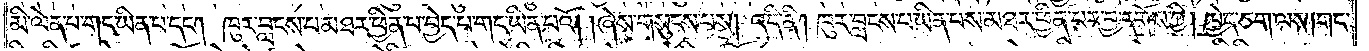མི་ལེན་པ་གང་ཡིན་པ་དང༌། ཁུར་བླངས་པ་མཐར་ཕྱིན་པ་བྱེད་པ་གང་ཡིན་པའོ། །ཞེས་གསུངས་པས། འདི་ནི། ཁུར་བླངས་པ་ཡིན་པས་མཐར་ཕྱིན་པར་བྱ་དགོས་ཀྱི། ཁྱེད་ཅག་ལས། གང་
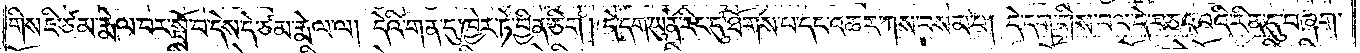གིས་ཇི་ཙམ་རྨེལ་བར་སྤྲོ་བ་དེས་དེ་ཙམ་རྨེལ་ལ། དེའི་གན་དུ་ཁྱེར་ཏེ་བྱིན་ཅིག །དེ་དག་ཡུན་རིང་དུ་ཐོགས་པ་དང་འཆར་ཀས་བསམ་པ། དེ་དག་གིས་བལ་དེ་བཅའ་བའི་རིན་དུ་བཞག་
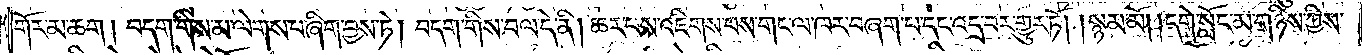གོར་མ་ཆག། བདག་གིས་མ་ལེགས་པ་ཞིག་བྱས་ཏེ། བདག་གིས་བལ་དེ་ནི། ཆར་པས་འཇིགས་པས་གང་ལ་ཁར་བཞག་པ་དང་འདྲ་བར་གྱུར་ཏོ། །སྙམ་མོ། །དགེ་སློང་མ་གཉིས་ཀྱིས་
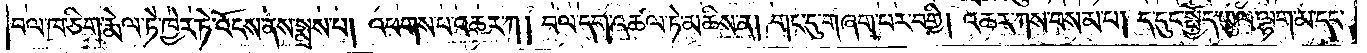བལ་ཁ་ཅིག་རྨེལ་ཏེ་ཁྱེར་ཏེ་འོངས་ནས་སྨྲས་པ། འཕགས་པ་འཆར་ཀ། བལ་དག་འཚལ་ཏེ་མཆིས་ན། གང་དུ་གཞག་པར་བགྱི། འཆར་ཀས་བསམ་པ། ད་དུང་སྤྱོད་ཡུལ་ལྷག་མ་དང་
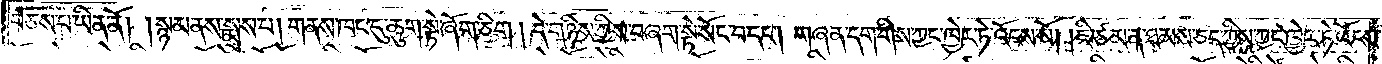བཅས་པ་ཡིན་ནོ། །སྙམ་ནས་སྨྲས་པ། གནས་ཁང་དུ་ཆུག་སྟེ་ཞོག་ཅིག །དེ་གཉིས་ཀྱིས་བཞག་སྟེ་སོང་བ་དང༌། གཞན་དག་གིས་ཀྱང་ཁྱེར་ཏེ་འོངས་སོ། །ཇི་ཙམ་ན་ཐམས་ཅད་ཀྱིས་ཀྱང་ཁྱེར་ཏེ་འོངས་
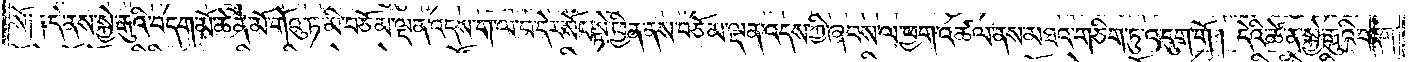སོ༑ ༑དེ་ནས་སྐྱེ་རྒུའི་བདག་མོ་ཆེན་མོ་གོའུ་ཏ་མི་བཅོམ་ལྡན་འདས་ག་ལ་བ་དེར་སོང་སྟེ་ཕྱིན་ནས་བཅོམ་ལྡན་འདས་ཀྱི་ཞབས་ལ་ཕྱག་འཚལ་ནས་མཐའ་གཅིག་ཏུ་འདུག་གོ། དེའི་ཚེ་ན་སྐྱེ་རྒུའི་བདག་
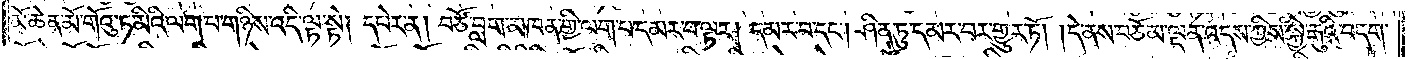མོ་ཆེན་མོ་གོའུ་ཏ་མིའི་ལག་པ་གཉིས་འདི་ལྟ་སྟེ། དཔེར་ན། བཙོ་བླག་མཁན་གྱི་ལག་པ་དམར་བ་ལྟར། དམར་པ་དང༌། ཤིན་ཏུ་དམར་བར་གྱུར་ཏོ། །དེ་ནས་བཅོམ་ལྡན་འདས་ཀྱིས་སྐྱེ་རྒུའི་བདག་
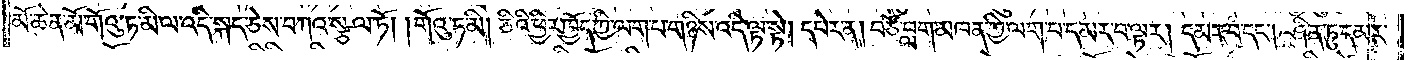མོ་ཆེན་མོ་གོའུ་ཏ་མི་ལ་འདི་སྐད་ཅེས་བཀའ་སྩལ་ཏོ། །གོའུ་ཏ་མི། ཅིའི་ཕྱིར་ཁྱོད་ཀྱི་ལག་པ་གཉིས་འདི་ལྟ་སྟེ། དཔེར་ན། བཙོ་བླག་མཁན་གྱི་ལག་པ་དམར་བ་ལྟར། དམར་བ་དང༌། ཤིན་ཏུ་དམར་
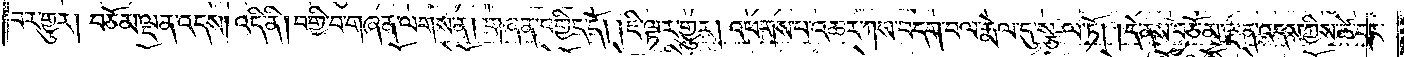བར་གྱུར། བཅོམ་ལྡན་འདས། འདི་ནི། བགྱི་བ་གཞན་ལགས་ན། གཞན་བགྱིད་དོ། །ཇི་ལྟར་གྱུར། འཕགས་པ་འཆར་ཀས་བདག་བལ་རྨེལ་དུ་སྩལ་ཏོ། །དེ་ནས་བཅོམ་ལྡན་འདས་ཀྱིས་ཚེ་དང་
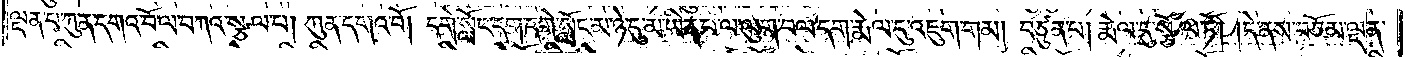ལྡན་པ་ཀུན་དགའ་བོ་ལ་བཀའ་སྩལ་པ། ཀུན་དགའ་བོ། དགེ་སློང་དག་དགེ་སློང་མ་ཉེ་དུ་མ་ཡིན་པ་ལ་ལུག་བལ་དག་རྨེལ་དུ་འཇུག་གམ། བཙུན་པ། རྨེལ་དུ་སྩོལ་ཏོ། །དེ་ནས་བཅོམ་ལྡན་
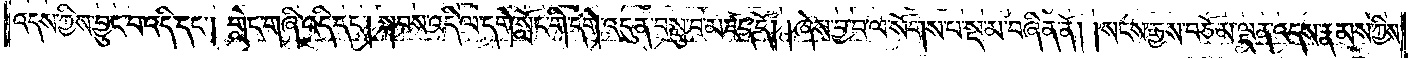འདས་ཀྱིས་བྱུང་བ་འདི་དང༌། གླེང་གཞི་འདི་དང༌། སྐབས་འདི་ལ་དགེ་སློང་གི་དགེ་འདུན་བསྡུ་བ་མཛད་དོ། །ཞེས་བྱ་བ་ལ་སོགས་པ་སྔ་མ་བཞིན་ནོ། །སངས་རྒྱས་བཅོམ་ལྡན་འདས་རྣམས་ཀྱིས་
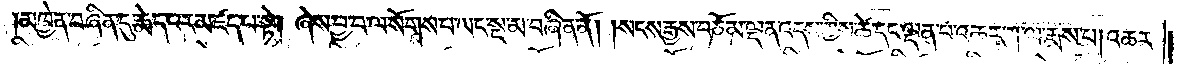མཁྱེན་བཞིན་དུ་རྨེད་པར་མཛད་པ་སྟེ། ཞེས་བྱ་བ་ལ་སོགས་པ་ཡང་སྔ་མ་བཞིན་ནོ། །སངས་རྒྱས་བཅོམ་ལྡན་འདས་ཀྱིས་ཚེ་དང་ལྡན་པ་འཆར་ཀ་ལ་རྨས་པ། འཆར་
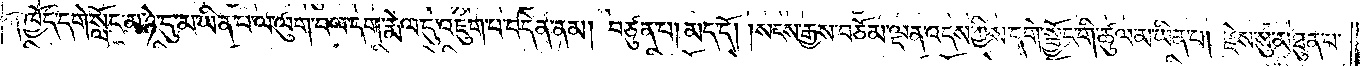ཀ་ཁྱོད་དགེ་སློང་མ་ཉེ་དུ་མ་ཡིན་པ་ལ་ལུག་བལ་དག་རྨེལ་དུ་འཇུག་པ་བདེན་ནམ། བཙུན་པ། མད་དོ། །སངས་རྒྱས་བཅོམ་ལྡན་འདས་ཀྱིས་དགེ་སྦྱོང་གི་ཚུལ་མ་ཡིན་པ། རྗེས་སུ་མཐུན་པ་
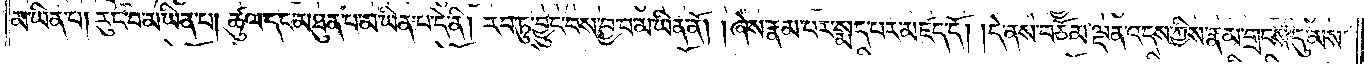མ་ཡིན་པ། རུང་བ་མ་ཡིན་པ། ཚུལ་དང་མཐུན་པ་མ་ཡིན་པ་དེ་ནི། རབ་ཏུ་བྱུང་བས་བྱ་བ་མ་ཡིན་ནོ། །ཞེས་རྣམ་པར་སྨད་པར་མཛད་དོ། །དེ་ནས་བཅོམ་ལྡན་འདས་ཀྱིས་རྣམ་གྲངས་དུ་མས་
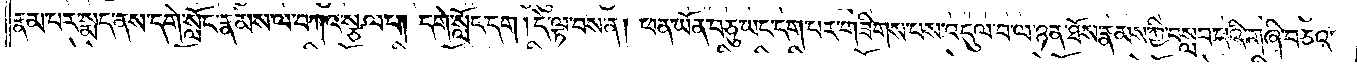རྣམ་པར་སྨད་ནས་དགེ་སློང་རྣམས་ལ་བཀའ་སྩལ་པ། དགེ་སློང་དག །དེ་ལྟ་བས་ན། ཕན་ཡོན་བཅུ་ཡང་དག་པར་གཟིགས་པས་འདུལ་བ་ལ་ཉན་ཐོས་རྣམས་ཀྱི་བསླབ་པའི་གཞི་བཅའ་
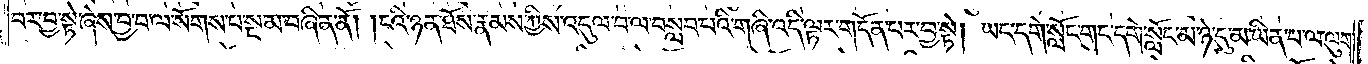བར་བྱ་སྟེ་ཞེས་བྱ་བ་ལ་སོགས་པ་སྔ་མ་བཞིན་ནོ། །ངའི་ཉན་ཐོས་རྣམས་ཀྱིས་འདུལ་བ་ལ་བསླབ་པའི་གཞི་འདི་ལྟར་གདོན་པར་བྱ་སྟེ། ཡང་དགེ་སློང་གང་དགེ་སློང་མ་ཉེ་དུ་མ་ཡིན་པ་ལ་ལུག་
